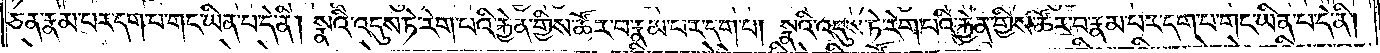ཅན་རྣམ་པར་དག་པ་གང་ཡིན་པ་དེ་ནི། སྣའི་འདུས་ཏེ་རེག་པའི་རྐྱེན་གྱིས་ཚོར་བ་རྣམ་པར་དག་པ། སྣའི་འདུས་ཏེ་རེག་པའི་རྐྱེན་གྱིས་ཚོར་བ་རྣམ་པར་དག་པ་གང་ཡིན་པ་དེ་ནི།
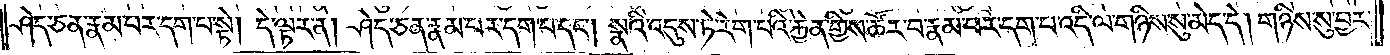ཤེད་ཅན་རྣམ་པར་དག་པ་སྟེ། དེ་ལྟར་ན། ཤེད་ཅན་རྣམ་པར་དག་པ་དང༌། སྣའི་འདུས་ཏེ་རེག་པའི་རྐྱེན་གྱིས་ཚོར་བ་རྣམ་པར་དག་པ་འདི་ལ་གཉིས་སུ་མེད་དེ། གཉིས་སུ་བྱར་
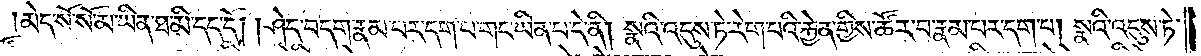མེད་སོ་སོ་མ་ཡིན་ཐ་མི་དད་དོ། །ཤེད་བདག་རྣམ་པར་དག་པ་གང་ཡིན་པ་དེ་ནི། སྣའི་འདུས་ཏེ་རེག་པའི་རྐྱེན་གྱིས་ཚོར་བ་རྣམ་པར་དག་པ། སྣའི་འདུས་ཏེ་
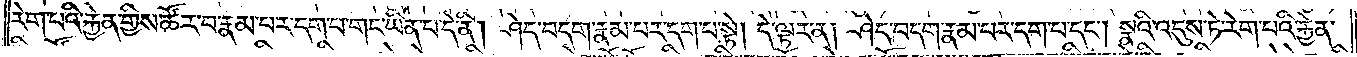རེག་པའི་རྐྱེན་གྱིས་ཚོར་བ་རྣམ་པར་དག་པ་གང་ཡིན་པ་དེ་ནི། ཤེད་བདག་རྣམ་པར་དག་པ་སྟེ། དེ་ལྟར་ན། ཤེད་བདག་རྣམ་པར་དག་པ་དང༌། སྣའི་འདུས་ཏེ་རེག་པའི་རྐྱེན་
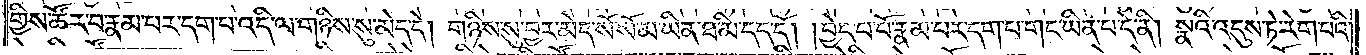གྱིས་ཚོར་བ་རྣམ་པར་དག་པ་འདི་ལ་གཉིས་སུ་མེད་དེ། གཉིས་སུ་བྱར་མེད་སོ་སོ་མ་ཡིན་ཐ་མི་དད་དོ། །བྱེད་པ་པོ་རྣམ་པར་དག་པ་གང་ཡིན་པ་དེ་ནི། སྣའི་འདུས་ཏེ་རེག་པའི་
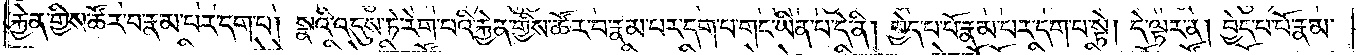རྐྱེན་གྱིས་ཚོར་བ་རྣམ་པར་དག་པ། སྣའི་འདུས་ཏེ་རེག་པའི་རྐྱེན་གྱིས་ཚོར་བ་རྣམ་པར་དག་པ་གང་ཡིན་པ་དེ་ནི། བྱེད་པ་པོ་རྣམ་པར་དག་པ་སྟེ། དེ་ལྟར་ན། བྱེད་པ་པོ་རྣམ་
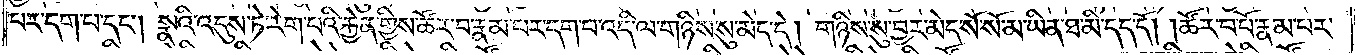པར་དག་པ་དང༌། སྣའི་འདུས་ཏེ་རེག་པའི་རྐྱེན་གྱིས་ཚོར་བ་རྣམ་པར་དག་པ་འདི་ལ་གཉིས་སུ་མེད་དེ། གཉིས་སུ་བྱར་མེད་སོ་སོ་མ་ཡིན་ཐ་མི་དད་དོ། །ཚོར་བ་པོ་རྣམ་པར་
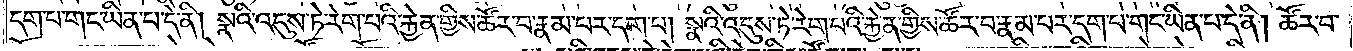དག་པ་གང་ཡིན་པ་དེ་ནི། སྣའི་འདུས་ཏེ་རེག་པའི་རྐྱེན་གྱིས་ཚོར་བ་རྣམ་པར་དག་པ། སྣའི་འདུས་ཏེ་རེག་པའི་རྐྱེན་གྱིས་ཚོར་བ་རྣམ་པར་དག་པ་གང་ཡིན་པ་དེ་ནི། ཚོར་བ་
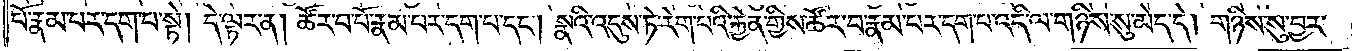པོ་རྣམ་པར་དག་པ་སྟེ། དེ་ལྟར་ན། ཚོར་བ་པོ་རྣམ་པར་དག་པ་དང༌། སྣའི་འདུས་ཏེ་རེག་པའི་རྐྱེན་གྱིས་ཚོར་བ་རྣམ་པར་དག་པ་འདི་ལ་གཉིས་སུ་མེད་དེ། གཉིས་སུ་བྱར་
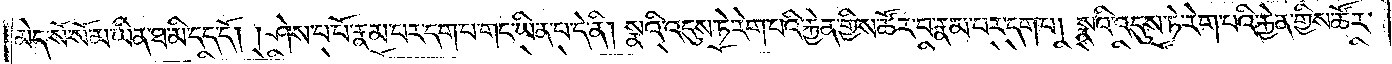མེད་སོ་སོ་མ་ཡིན་ཐ་མི་དད་དོ། །ཤེས་པ་པོ་རྣམ་པར་དག་པ་གང་ཡིན་པ་དེ་ནི། སྣའི་འདུས་ཏེ་རེག་པའི་རྐྱེན་གྱིས་ཚོར་བ་རྣམ་པར་དག་པ། སྣའི་འདུས་ཏེ་རེག་པའི་རྐྱེན་གྱིས་ཚོར་
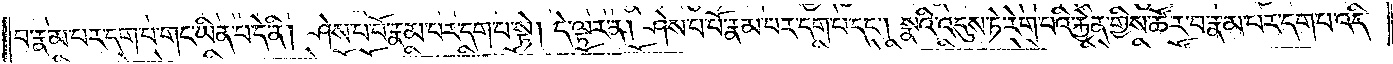བ་རྣམ་པར་དག་པ་གང་ཡིན་པ་དེ་ནི། ཤེས་པ་པོ་རྣམ་པར་དག་པ་སྟེ། དེ་ལྟར་ན། ཤེས་པ་པོ་རྣམ་པར་དག་པ་དང༌། སྣའི་འདུས་ཏེ་རེག་པའི་རྐྱེན་གྱིས་ཚོར་བ་རྣམ་པར་དག་པ་འདི་
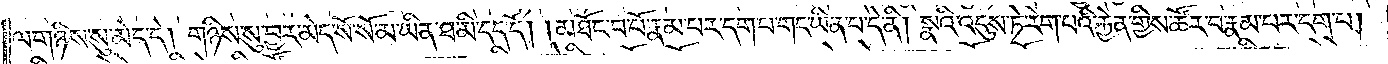ལ་གཉིས་སུ་མེད་དེ། གཉིས་སུ་བྱར་མེད་སོ་སོ་མ་ཡིན་ཐ་མི་དད་དོ། །མཐོང་བ་པོ་རྣམ་པར་དག་པ་གང་ཡིན་པ་དེ་ནི། སྣའི་འདུས་ཏེ་རེག་པའི་རྐྱེན་གྱིས་ཚོར་བ་རྣམ་པར་དག་པ།
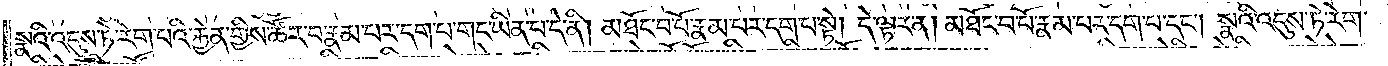སྣའི་འདུས་ཏེ་རེག་པའི་རྐྱེན་གྱིས་ཚོར་བ་རྣམ་པར་དག་པ་གང་ཡིན་པ་དེ་ནི། མཐོང་བ་པོ་རྣམ་པར་དག་པ་སྟེ། དེ་ལྟར་ན། མཐོང་བ་པོ་རྣམ་པར་དག་པ་དང༌། སྣའི་འདུས་ཏེ་རེག་
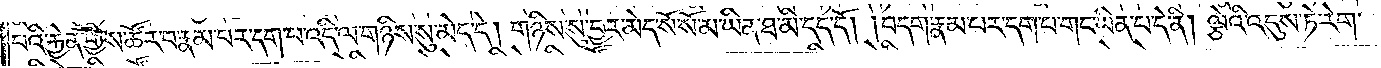པའི་རྐྱེན་གྱིས་ཚོར་བ་རྣམ་པར་དག་འདི་ལ་གཉིས་སུ་མེད་དེ། གཉིས་སུ་བྱར་མེད་སོ་སོ་མ་ཡིན་ཐ་མི་དད་དོ། །བདག་རྣམ་པར་དག་པ་གང་ཡིན་པ་དེ་ནི། ལྕེའི་འདུས་ཏེ་རེག་
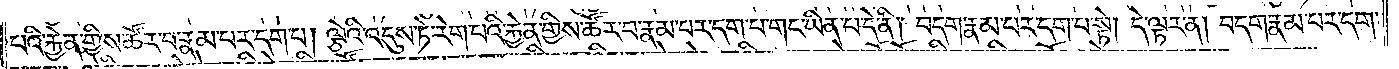པའི་རྐྱེན་གྱིས་ཚོར་བ་རྣམ་པར་དག་པ། ལྕེའི་འདུས་ཏེ་རེག་པའི་རྐྱེན་གྱིས་ཚོར་བ་རྣམ་པར་དག་པ་གང་ཡིན་པ་དེ་ནི། བདག་རྣམ་པར་དག་པ་སྟེ། དེ་ལྟར་ན། བདག་རྣམ་པར་དག་
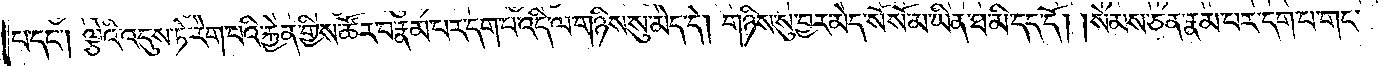པ་དང༌། ལྕེའི་འདུས་ཏེ་རེག་པའི་རྐྱེན་གྱིས་ཚོར་བ་རྣམ་པར་དག་པ་འདི་ལ་གཉིས་སུ་མེད་དེ། གཉིས་སུ་བྱར་མེད་སོ་སོ་མ་ཡིན་ཐ་མི་དད་དོ། །སེམས་ཅན་རྣམ་པར་དག་པ་གང་
